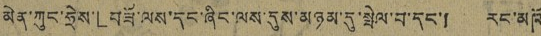མེན་ཀུང་ཧྲེས་「བཟོ་ལས་དང་ཞིང་ལས་དུས་མཉམ་དུ་སྤེལ་བ་དང་། རང་མཁོ
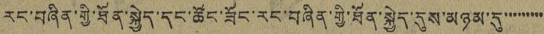རང་བཞིན་གྱི་ཐོན་སྐྱེད་དང་ཚོང་ཟོང་རང་བཞིན་གྱི་ཐོན་སྐྱེད་དུས་མཉམ་དུ་་་་་་་་་
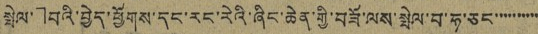སྤེལ་」བའི་བྱེད་ཕྱོགས་དང་རང་རེའི་ཞིང་ཆེན་གྱི་བཟོ་ལས་སྤེལ་བ་ཧ་ཅང་་་་་་་་་་་
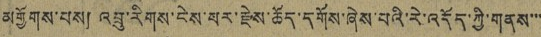མགྱོགས་པས། འབྲུ་རིགས་ངེས་པར་རྗེས་ཆོད་དགོས་ཞེས་པའི་རེ་འདོད་ཀྱི་གནས་་་
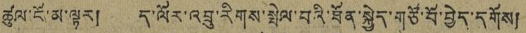ཚུལ་ངོ་མ་ལྟར། ད་ལོར་འབྲུ་རིགས་སྤེལ་བའི་ཐོན་སྐྱེད་གཙོ་བོ་བྱེད་དགོས།
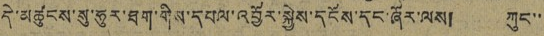དེ་མཚུངས་སུ་ཧུར་ཐག་གིས་དཔལ་འབྱོར་སྐྱེས་དངོས་དང་ཞོར་ལས། ཀུང་་
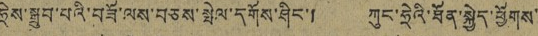ཧྲེས་སྒྲུབ་པའི་བཟོ་ལས་བཅས་སྤེལ་དགོས་ཤིང་། ཀུང་ཧྲེའི་ཐོན་སྐྱེད་ཕྱོགས
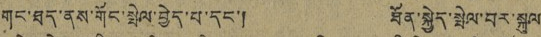གང་ཐད་ནས་གོང་སྤེལ་བྱེད་པ་དང་། ཐོན་སྐྱེད་སྤེལ་བར་སྐུལ
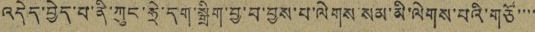འདེད་བྱེད་པ་ནི་ཀུང་ཧྲེ་དག་སྒྲིག་བྱ་བ་བྱས་པ་ལེགས་སམ་མི་ལེགས་པའི་གཙོ་་་་་
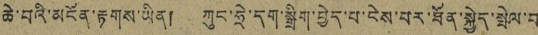ཆེ་བའི་མངོན་རྟགས་ཡིན། ཀུང་ཧྲེ་དག་སྒྲིག་བྱེད་པ་ངེས་པར་ཐོན་སྐྱེད་སྤེལ་བ་
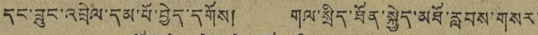དང་ཟུང་འབྲེལ་དམ་པོ་བྱེད་དགོས། གལ་སྲིད་ཐོན་སྐྱེད་མཐོ་རླབས་གསར་
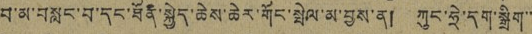བ་མ་བསླང་བ་དང་ཐོན་སྐྱེད་ཆེས་ཆེར་གོང་སྤེལ་མ་བྱས་ན། ཀུང་ཧྲེ་དག་སྒྲིག་་་
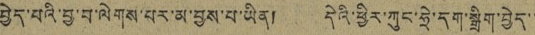བྱེད་པའི་བྱ་བ་ལེགས་པར་མ་བྱས་པ་ཡིན། དེའི་ཕྱིར་ཀུང་ཧྲེ་དག་སྒྲིག་བྱེད་་
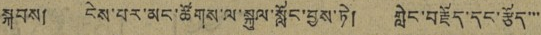སྐབས། ངེས་པར་མང་ཚོགས་ལ་སྐུལ་སློང་བྱས་ཏེ། གླེང་བརྗོད་དང་རྩོད་་་
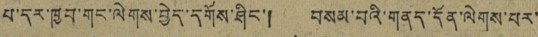པ་དར་ཁྱབ་གང་ལེགས་བྱེད་དགོས་ཤིང་། བསམ་པའི་གནད་དོན་ལེགས་པར་
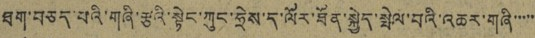ཐག་བཅད་པའི་གཞི་རྩའི་སྟེང་ཀུང་ཧྲེས་ད་ལོར་ཐོན་སྐྱེད་སྤེལ་བའི་འཆར་གཞི་་་་་་
